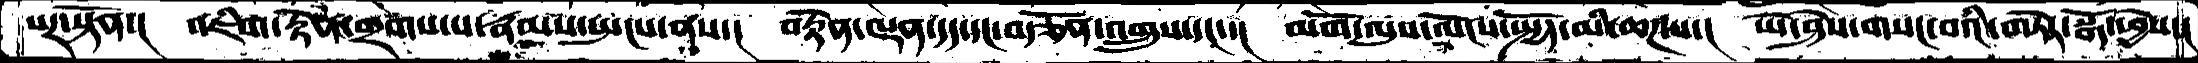པར་སྟོན་།  འཇིག་རྟེན་གྲགས་པ་རྣམས་སྤངས་ནས་།  བརྟེན་ལྡན་དད་དང་བརྩོན་འགྲུས་དང་་།  མགོ་ལུས་ལོངས་སྤྱོད་མི་ཆཌ་པ་།  ཡེ་ཤེས་གསང་བའི་གཏེར་སྒོ་ཕྱེས་།
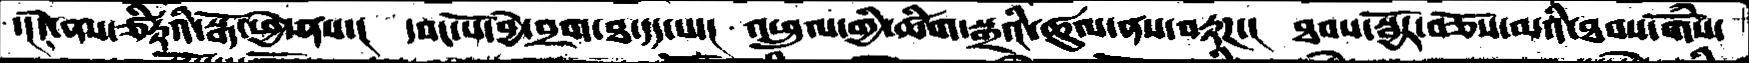་།དེ་ནས་ཙིཏྟའི་སྒོ་ཕྱེ་ནས་།   དབང་པོ་བྱེ་བྲག་ཐ་དད་པ་།  འཕྲུལ་གྱི་ཚིག་སྒྲའི་ཚུལ་ནས་བརྟཌ་།  ཐབས་སྦྱོར་བཅོས་མའི་ཐབས་གོཾས་
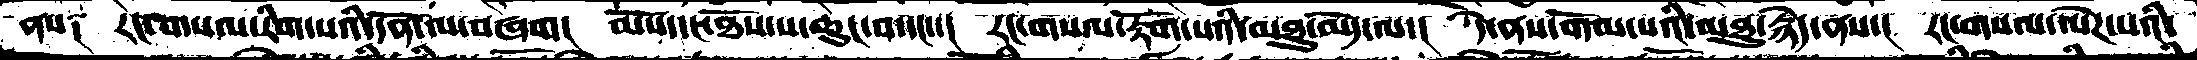ནས༑   རང་གསལ་རིག་པའི་དོན་ལ་བཞག།   མོས་དང་ཐོས་པ་ཆུང་བ་དང་་།  རང་གསལ་རྟོག་པའི་མཐུ་མེད་ལ་།  དེ་ནས་གོམ་པའི་མཐུ་རྙེད་ནས་།  རང་གསལ་ལེཌ་པའི་
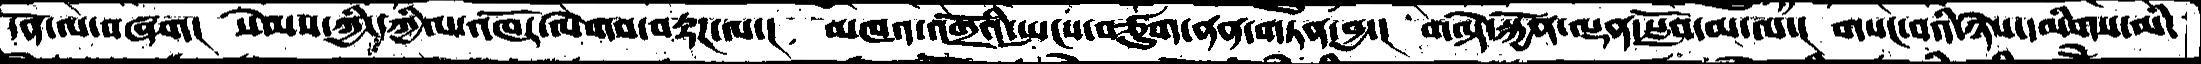དོན་ལ་བཞག།   སེམས་ཀྱི་དཀྱིལ་འཁོར་ལེགས་བརྟཌ་ལ་།   མཁའ་འགྲོའི་སྤངས་བཙུག་ནན་གཏན་བྱ་།  གལྟེ་སྐྱོན་ལྡན་སློབ་མ་ལ་།  གསང་བའི་ཉེས་དམིགས་མི་
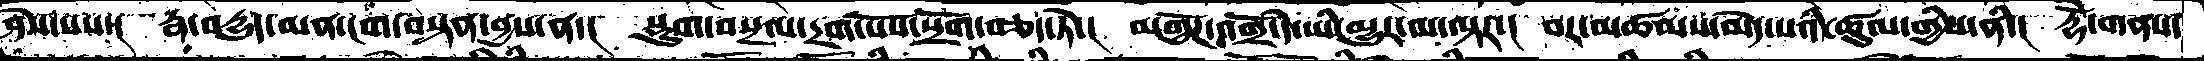ཤེས་པས་།   རྣ་བདྱུད་མན་ངག་བསྟན་བྱས་ན་།  སྡུག་བསྔལ་དྲག་པོས་སྲོག་བཅད་ཏེ་།  མགྱོཌ་འགྲོ་དེ་ཡི་མྱུར་མ་ལྟར་།  བར་མཚམས་མེད་པའི་ཚུལ་གྱིས་ནི་།  རྡོེ་གནས་
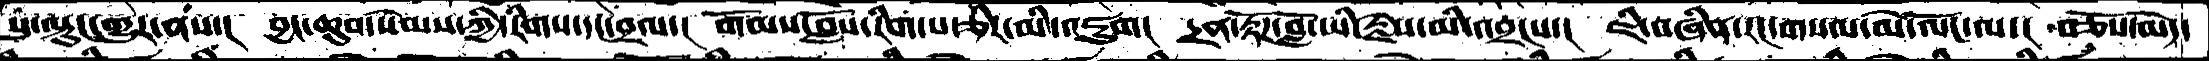སུ་ལྟུང་གྱུར་ནས་།   བྱང་ཆུབ་སེམས་ཀྱི་རིགས་དང་བྲལ་།   གོམས་བློས་རིག་པ་ཅིར་མི་འཇུག།  དྲན་རྟོཌ་བློ་ཡི་རྗེས་མི་འབྲངས་།  ཇི་བཞིན་རང་གསལ་མེ་ལོང་ལ་།  བཅོས་མེད་
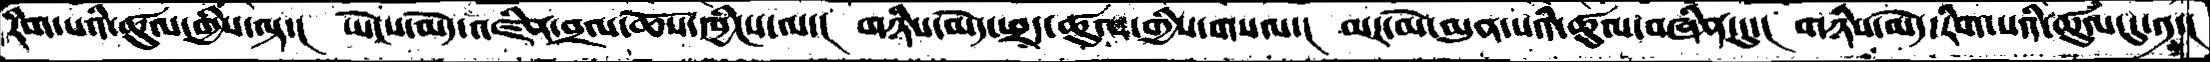རིག་པའི་ཚུལ་གྱིས་ལྟ་།  ཡེངས་མེད་འཛིན་བྲལ་ཆོས་དབྱིངས་ལ་།  གཉིས་མེད་ཕྲད་ཚུལ་གྱིས་གསལ་།  མར་མེ་མུན་པའི་ཚུལ་བཞིན་དུ་།  གཉིས་མེད་རིག་པའི་ཚུལ་དུ་༡་།
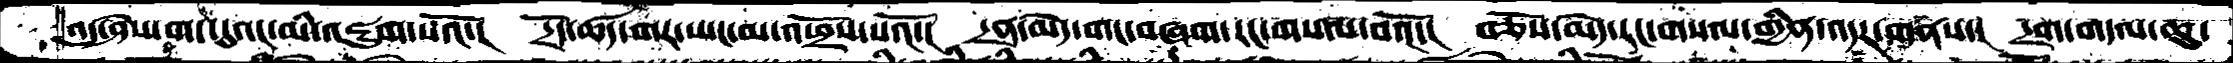འདུ་ཤེས་གང་དུའང་མི་འཇུག་པའོ་།   དྲོད་ཚད་གར་ཡང་མ་འཕྲོས་པའོ་།  དྲན་མེད་གང་བཞག་རང་གསལ་བའོ་།  བཅོས་མེད་རང་གསལ་གྱིན་འདར་གནས་།  དྲག་གདལ་ཆུ་
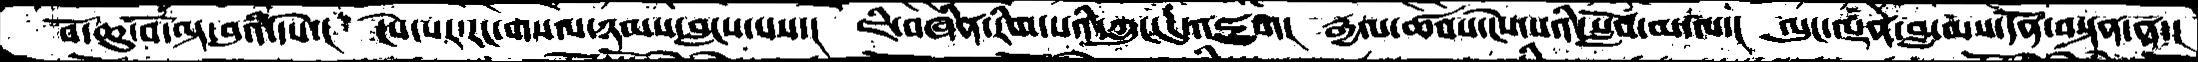བོ་ཆུ་བོ་ལྟ་བུའི་དཔེ་།  ངེས་པར་རང་གསལ་ཉམས་བླངས་པས་།   ཇི་བཞིན་རིག་པའི་ཀླུང་དུ་འཇུག།   རྒྱལ་ཚབས་ངེས་པའི་སློབ་མ་ལ་།  ལུང་ལྡན་བླ་མས་དོན་བསྟན་ན་།
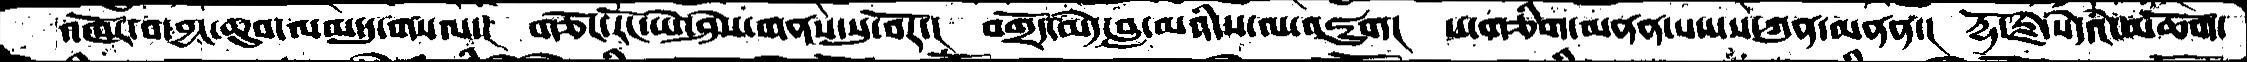འཁོར་བ་བྱང་ཆུབ་ལམ་དུ་གསལ་།  གཅོང་རོང་ཡེ་ཤེས་གནས་སུ་བོར་།  བགྲོད་མེད་བླ་མའི་ས་ལ་འཇུག།  ས་གཅིག་མནན་པས་ས་ཀུན་མནན་།  རྡོ་རྗེ་སེདཾའ་མཆོག་
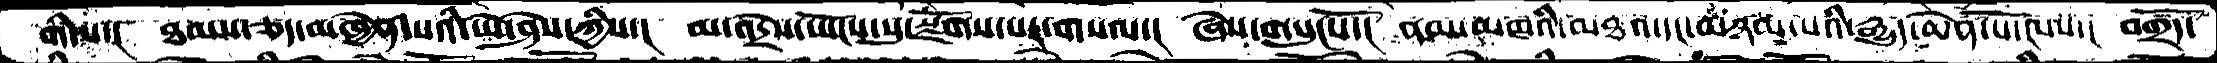གི་ས་།  ཐམས་ཅད་མཁྱེན་པའི་ཡེ་ཤེས་ཀྱིས་།  མ་འདྲེས་ཡོངས་སུ་སྫོགས་པར་གསལ་།  ཞེས་གསུངསོ་།  ནམ་མཁའི་མཐའ་དང་མཉམ་པའི་རྒྱུད་ཆེན་པོ་ལས་།  བགྲོད་
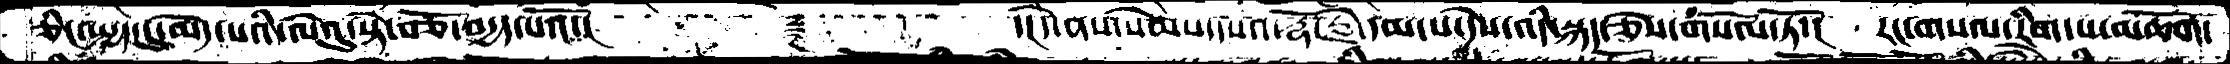ཅིང་སྤྱད་དུ་མེད་པའི་ལེའུ་སྟེ་བཅོ་བདྱད་པའོ་།     ࿑     ་།དེ་ནས་སེམས་དཔའ་རྡོ་རྗེ་དམ་པ་དེས་འདི་སྐད་ཅེས་གསོལ་ཏོ་།   རང་གསལ་རིག་པ་མཆོག་
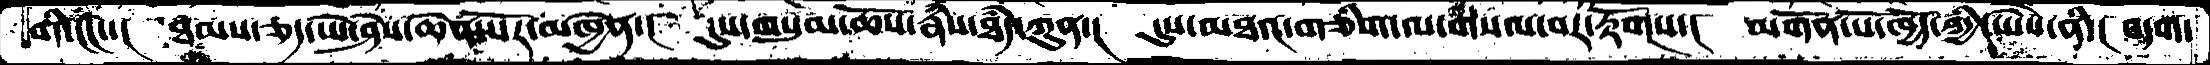གི་ངང་་།   ཐམས་ཅད་ཡེ་ཤེས་ཆེན་པོར་མཁྱེན་།  དུས་གསུམ་ཆོས་རྣཾས་ཐཾད་ཀུན་།  དུས་མཐའ་གཅིག་ལ་གསལ་བར་རྟོགས་།  མགོན་པོ་ཁྱོད་ཀྱི་ཡཻས་ནི་།  བདག་
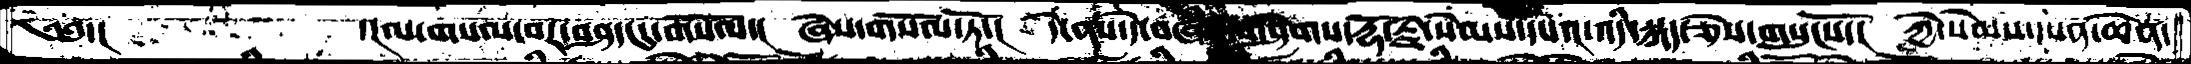༄༅་།    ་།ལ་གསལ་བར་བཤད་དུ་གསོལ་།  ཞེས་གསོལ་ཏོ་།  དེ་ནས་དེ་བཞིན་གཤེགས་རྡོ་རྗེ་སེམས་དཔའ་འདི་སྐད་ཅེས་གསུངསོ་།  ཀྱེ་སེམས་དཔའ་ཆེན་
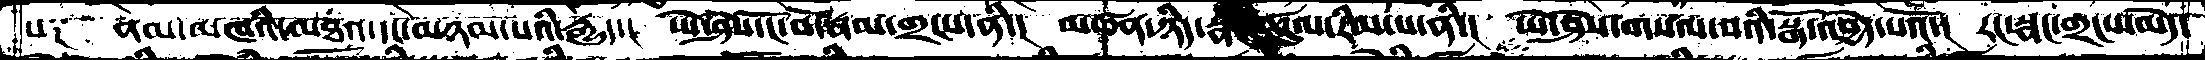པ༑   ནམ་མཁའི་མཐའ་དང་མཉམ་པའི་རྒྱུད་།  ཡེ་ཤེས་ངོ་བོ་རྣམ་གྲངས་ནི་།  མཚན་ཉིད་སྣང་ཚུལ་རིམ་པ་ནི་།  ཡེ་ཤེས་གསལ་བའི་སྒོ་འབྱེད་པའོ་།   རང་སྣང་གྲངས་མེད་
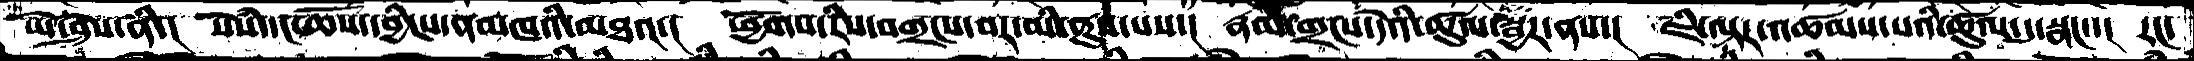ཡེ་ཤེས་ནི་།  སེཾས་དང་ཆོས་དབྱིངས་ནམཁའི་མཐའ་།  ཕྱོགས་རིས་བགྲངས་བར་མི་ནུས་པས་།  རྣམ་གྲངས་དེའི་ཚུལ་སྦྱར་ནས་།  ཇི་ལྟར་འཚམས་པའི་ཚུལ་དུ་སྣང་་།  རང་
